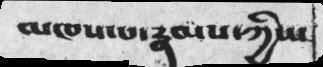མཁས་པ་རྣམས་ཀྱིས་
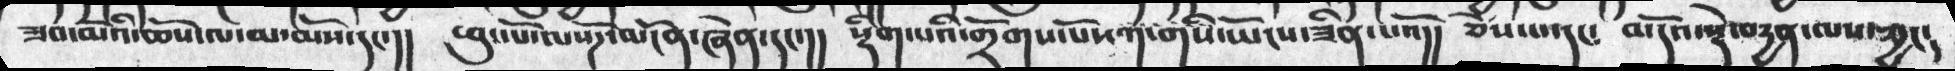ཟབ་མོའི་ཆོས་ལ་མ་མོས་དང་།།  ཕུང་པོ་ལསོཌ་མངོན་ཞེན་དང་།།  སྡིག་པའི་གྲོགས་པོས་༡་གིས་ཡོངས་ཟིན་པའོ།།  ཅེས་པ་དང༴  མདོའ་སྡེ་བརྱན་ལས་ཀྱང།
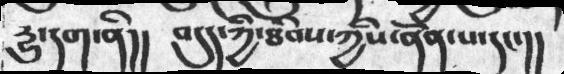རྱུ་དག་ནི།།  བདུད་ཀྱི་ཐིབས་ཀྱིས་ནོན་པ་དང་།།
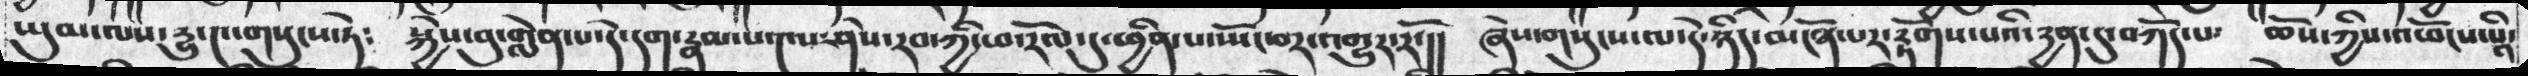ཡུམ་ལས་རྱུ་༤་གསུངས་ཏེ༴  སྐྱེས་བུ་གླེན་པ་དེ་དག་རྣམ་པ་༤ས་ཤེས་རབ་ཀྱི་ཕ་རོལ་དུ་ཕྱིན་པ་ཡོང་བར་འགྱུར་རོ་།།  ཞེས་གསུངས་ལ་དེ་ཉིད་མངོན་པར་རྟོགས་པའི་རྱན་དུ་བཀོད་པ༴  ཆོས་ཀྱིས་འཕོངས་པི་
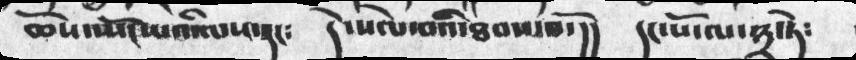ཆོས་ཡོང་པའི་ལས་དང༴ དེ་སེལ་བའི་ཐབས་བདོ།། དང་པོ་ལ་༣་ཏེ༴
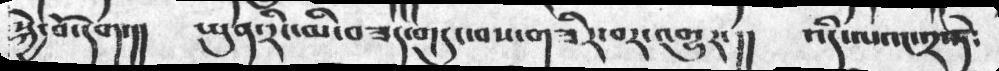སྐྱེ་བོ་དག་།།  ཡུན་རིང་མི་བཟད་གདུང་བས་གཟིར་བར་འགྱུར་།།  འདི་ལའང་༢ཏེ༴
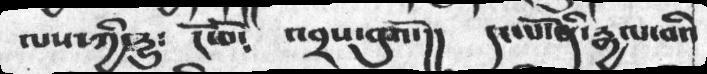ལས་ཀྱི་རྒྱུ༴  ངོ་བོ༴  འབྲས་བུ་འོ་།།  དང་པོ་ནི་རྒྱལ་བའི་
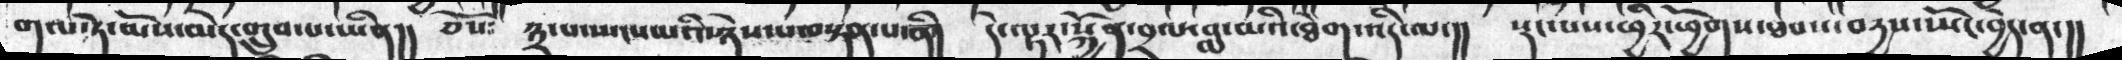གལ་ཏེ་མོས་མེད་གྲུབ་པ་ཡིན།། བསོ༴  ༣་པ་ཡངསམའི་ཉེས་པ་བསྟན་པ་ནི།  དེ་ལྟར་སྐྱོན་བྲལ་བླ་མའི་ཐེག་འདི་ལ་།།  སྡང་སས་ཕྱིར་ཕྱོགས་ཐབས་བརྒྱས་ཡོང་བྱེད་ན་།།
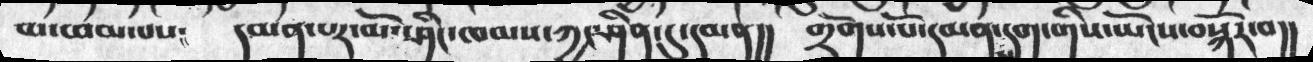མ་ཕམ་པས༴  དམན་པར་མོསཤིང་ཁམས་ཀྱང་ཤིན་དུ་དམན།།  གྲོགས་པོ་དམན་དག་གིས་ཡོངས་བསྐོར་བ།།
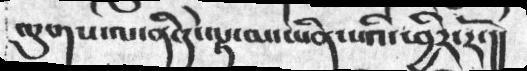ལུགས་ལ་ནི་དེ་ལྟ་མ་ཡིན་པའི་ཕྱིར་རོ་།།
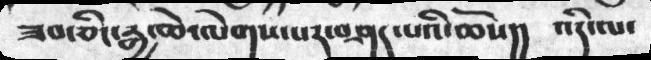ཟབ་ཅིང་རྒྱ་ཆེ་ལེགས་པར་བཤད་པའི་ཆོས།།  འདི་ལ་
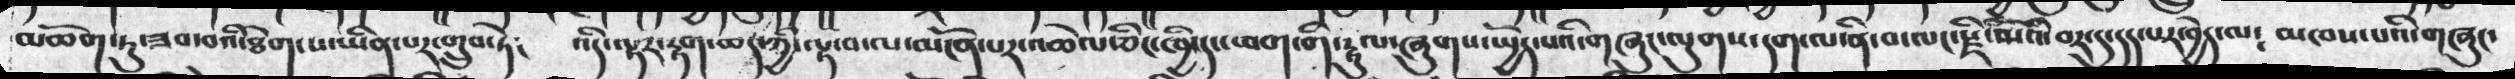མཆོག་ཏུ་ཟབ་པའི་ཐེག་པ་ཡིན་པར་གྲུབ་ཏེ༴  འདི་ལྟར་རྟག་ཆད་ཀྱི་ལྟ་བ་ལ་མངོན་པར་འཆེལ་ཅིང་ཁྱི་དང་ཕག་གི་རྡུལ་ཞུགས་སྤྱོད་པའི་གཞུང་ལུགས་དག་ལ་ནི་བ་ལང་རྫི་མོའི་བར་དུ་དད་པར་བྱེད་ལ༴  མཁས་པའི་གཞུང་
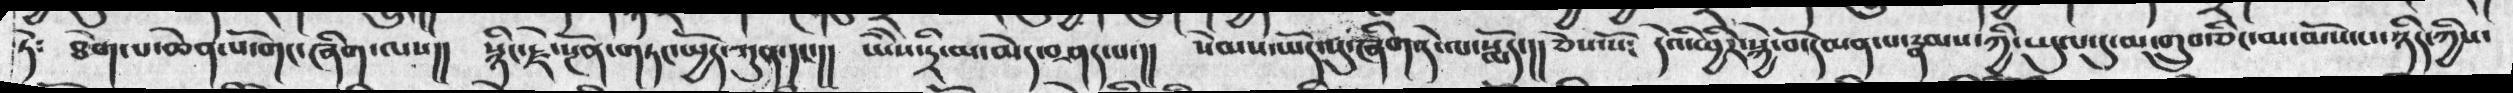ཏེ༴  ཐེག་པ་ཆེན་པོ་གང་ཞིག་ལས།།  སྙིང་རྗེ་སྔོན་གཏང་སྤྱོད་ཀུན་དང་།།  ཡེེས་དྲི་མ་མེད་བཤད་པ་།།   སེམས་ཡོང་སུ་ཞིག་དེ་ལ་སྨོད་།།  ཅེས་སོ༴  དེའི་ཕྱིར་སྐྱེ་བོ་དམན་པ་རྣམས་ཀྱི་ཡུལ་དུ་མ་གྲུབ་ཅིང་མ་མོས་པ་ཉིད་ཀྱིས་
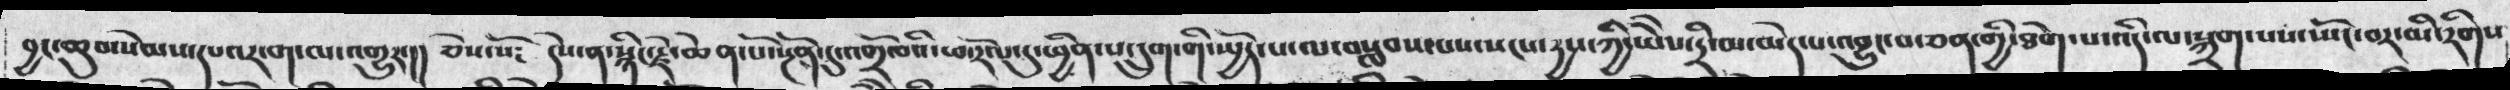བྱང་ཆུབ་སེམས་དཔའར་ག་ལ་འགྱུར་།།  ཅེས་སོ༴  དེས་ན་སྙིང་རྗེ་ཆེན་པོ་སྔོན་དུ་འགྲོ་བའི་ཕ་རོལ་དུ་ཕྱིན་པ་དྲུག་གི་སྤྱོད་པ་ལ་བསླབས་པས་སངས་རྱས་ཀྱི་ཡེེས་དྲི་མ་མེད་པ་འབྱུང་བ་ཅན་གྱི་ཐེག་པ་འདི་ལ་སྐྲག་པས་ཡོང་བར་མི་རིགས
